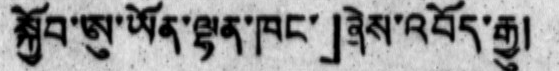སྐྱོབ་ཨུ་ཡོན་ལྷན་ཁང་」ཞེས་འབོད་རྒྱུ།
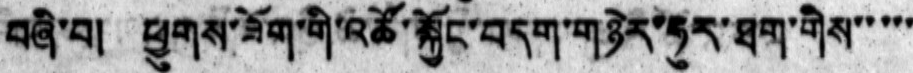བཞི་བ།  ཕྱུགས་ཟོག་གི་འཚོ་སྐྱོང་བདག་གཉེར་ཧུར་ཐག་གིས་་་་
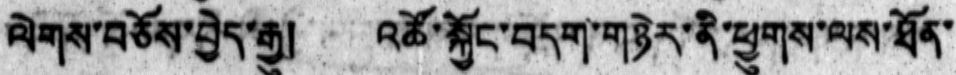ལེགས་བཅོས་བྱེད་རྒྱུ། འཚོ་སྐྱོང་བདག་གཉེར་ནི་ཕྱུགས་ལས་ཐོན་
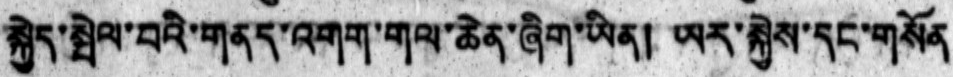སྐྱེད་སྤེལ་བའི་གནད་འགག་གལ་ཆེན་ཞིག་ཡིན། ཡར་སྐྱེས་དང་གསོན
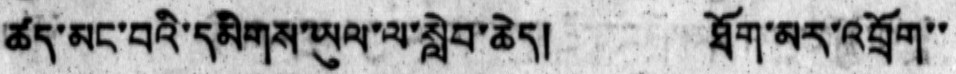ཚད་མང་བའི་དམིགས་ཡུལ་ལ་སླེབ་ཆེད། ཐོག་མར་འབྲོག་་
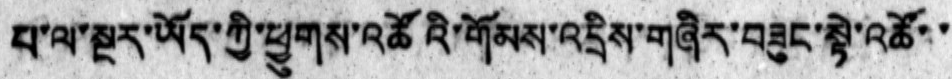པ་ལ་སྔར་ཡོད་ཀྱི་ཕྱུགས་འཚོའི་གོམས་འདྲིས་གཞིར་བཟུང་སྟེ་འཚོ་་
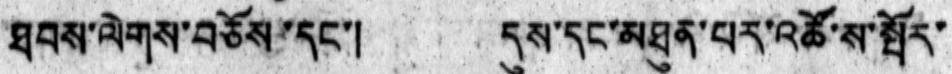ཐབས་ལེགས་བཅོས་དང་། དུས་དང་མཐུན་པར་འཚོ་ས་སྤོར་
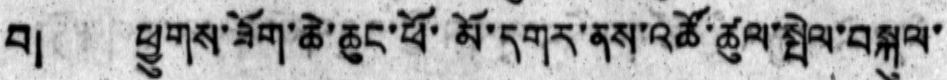བ། ཕྱུགས་ཟོག་ཆེ་ཆུང་ཕོ་མོ་དགར་ནས་འཚོ་ཚུལ་སྤེལ་བསྐུལ་
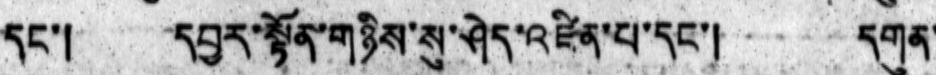དང་།  དབྱར་སྟོན་གཉིས་སུ་ཤེད་འཛིན་པ་དང་།  དགུན་
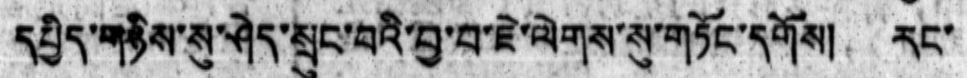དཔྱིད་གཉིས་སུ་ཤེད་སྲུང་བའི་བྱ་བ་ཇེ་ལེགས་སུ་གཏོང་དགོས། རང་
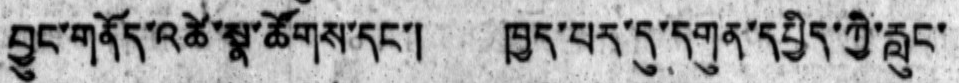བྱུང་གནོད་འཚེ་སྣ་ཚོགས་དང་། ཁྱད་པར་དུ་དགུན་དཔྱིད་ཀྱི་རླུང་
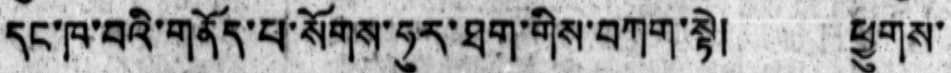དང་ཁ་བའི་གནོད་པ་སོགས་ཧུར་ཐག་གིས་བཀག་སྟེ། ཕྱུགས་
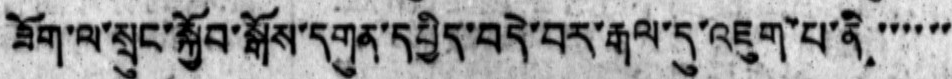ཟོག་ལ་སྲུང་སྐྱོབ་སྒོས་དགུན་དཔྱིད་བདེ་བར་རྒལ་དུ་འཇུག་པ་ནི་་་་་་་
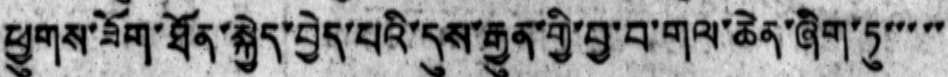ཕྱུགས་ཟོག་ཐོན་སྐྱེད་བྱེད་པའི་དུས་རྒྱུན་གྱི་བྱ་བ་གལ་ཆེན་ཞིག་ཏུ་་་་་
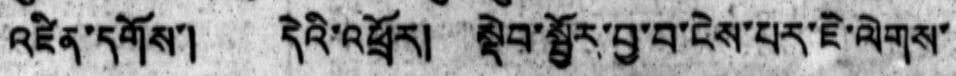འཛིན་དགོས་། དེའི་འཕྲོར། སྡེབ་སྦྱོར་བྱ་བ་ངེས་པར་ཇི་ལེགས་
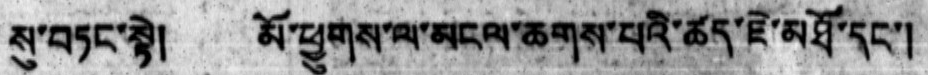སུ་བཏང་སྟེ། མོ་ཕྱུགས་ལ་མངལ་ཆགས་པའི་ཚད་ཇེ་མཐོ་དང་།
